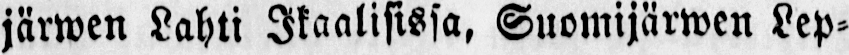järwen Lahti Ikaalisissa, Suomijärwen Lep-
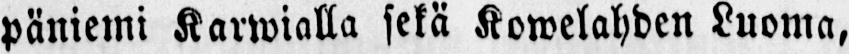päniemi Karwialla sekä Kowelahden Luoma,
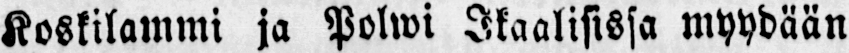Koskilammi ja Polwi Ikaalisissa myydään
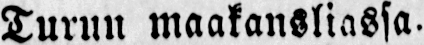Turun maakansliassa.
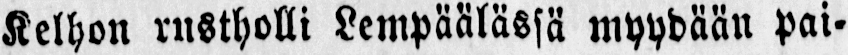„ „ Kelhon rustholli Lempäälässä myydään pai-
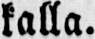kalla.
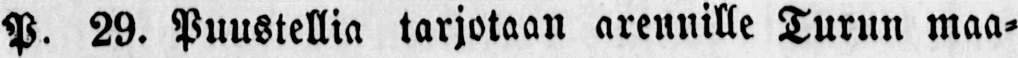P. 29. Puustellia tarjotaan arennille Turun maa-
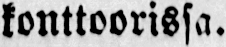konttoorissa.
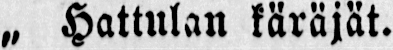„ „ Hattulan käräjät.
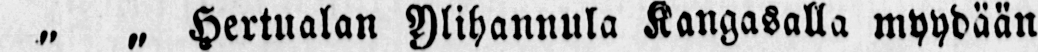„ „ Hertualan Ylihannula Kangasalla myydään
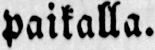paikalla.
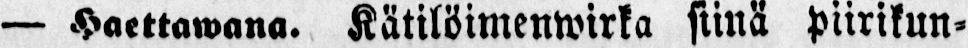— Haettawana. Kätilöimenwirka siinä piirikun-
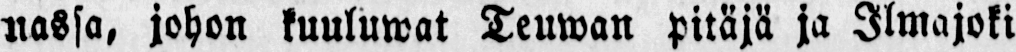nassa, johon kuuluwat Teuwan pitäjä ja Ilmajoki
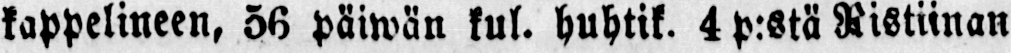kappelineen, 56 päiwän kul. huhtik. 4 p:stä Ristiinan
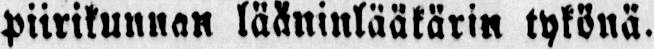piirikunnan lääninlääkärin tykönä.
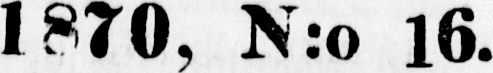1870, N:o 16.
